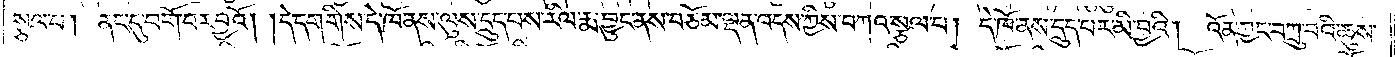སྩལ་པ། ནང་དུ་བགོ་བར་བྱའོ། །དེ་དག་གིས་དེ་ཁོ་ནས་ལུས་དྲུད་པས་རིལ་རྨ་བྱུང་ནས་བཅོམ་ལྡན་འདས་ཀྱིས་བཀའ་སྩལ་པ། དེ་ཁོ་ནས་དྲུད་པར་མི་བྱའི། འོན་ཀྱང་བཀྲུ་བའི་ཆུས་
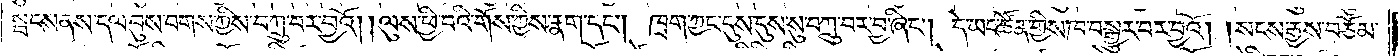སྤངས་ནས་དལ་བུས་བགས་ཀྱིས་བཀྲུ་བར་བྱའོ། །ལུས་ཕྱི་བའི་གོས་ཀྱིས་རྣག་དང༌། ཁྲག་ཀྱང་དུས་དུས་སུ་བཀྲུ་བར་བྱ་ཞིང༌། དེ་ཡང་ཚོན་གྱིས་ཁ་བསྒྱུར་བར་བྱའོ། །སངས་རྒྱས་བཅོམ་
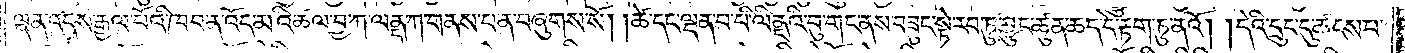ལྡན་འདས་རྒྱལ་པོའི་ཁབ་ན་འོད་མའི་ཚལ་བྱ་ཀ་ལནྡ་ཀ་གནས་པ་ན་བཞུགས་སོ། །ཚེ་དང་ལྡན་པ་པི་ལིནདའི་བུ་གང་ནས་བཟུང་སྟེ་རབ་ཏུ་བྱུང་ཚུན་ཆད་དེ་རྟག་ཏུ་ནའོ། །དེའི་དྲུང་དུ་ཚངས་པ་
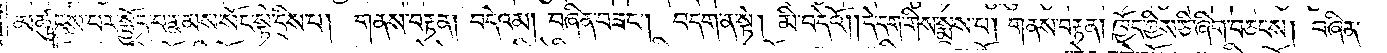མཚུངས་པར་སྤྱོད་པ་རྣམས་སོང་སྟེ་དྲིས་པ། གནས་བརྟན། བདེའམ། བཞིན་བཟང༌། བདག་ན་སྟེ། མི་བདེའོ། །དེ་དག་གིས་སྨྲས་པ། གནས་བརྟན། ཁྱོད་ཀྱིས་ཅི་ཞིག་བཅངས། བཞིན་
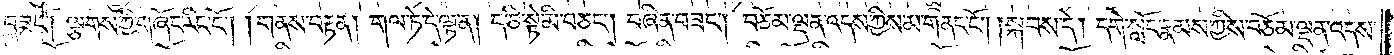བཟང༌། ལྕགས་ཀྱི་གཞོང་རིང་ངོ༌། །གནས་བརྟན། གལ་ཏེ་དེ་ལྟ་ན། ད་ཅི་སྟེ་མི་བཅང༌། བཞིན་བཟང༌། བཅོམ་ལྡན་འདས་ཀྱིས་མ་གནང་ངོ༌། །སྐབས་དེ། དགེ་སློང་རྣམས་ཀྱིས་བཅོམ་ལྡན་འདས་
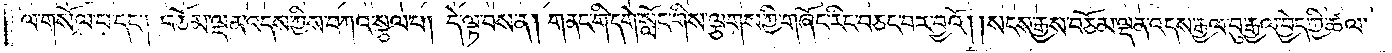ལ་གསོལ་པ་དང༌། བཅོམ་ལྡན་འདས་ཀྱིས་བཀའ་སྩལ་པ། དེ་ལྟ་བས་ན། གནང་གི་དགེ་སློང་གིས་ལྕགས་ཀྱི་གཞོང་རིང་བཅང་བར་བྱའོ། །སངས་རྒྱས་བཅོམ་ལྡན་འདས་རྒྱལ་བུ་རྒྱལ་བྱེད་ཀྱི་ཚལ་
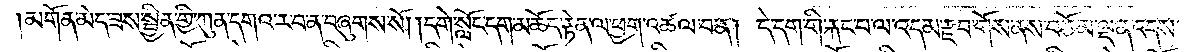མགོན་མེད་ཟས་སྦྱིན་གྱི་ཀུན་དགའ་ར་བ་ན་བཞུགས་སོ། །དགེ་སློང་དག་མཆོད་རྟེན་ལ་ཕྱག་འཚལ་བ་ན། དེ་དག་གི་རྐང་པ་ལ་འདམ་རྫབ་གོས་ནས་བཅོམ་ལྡན་འདས་
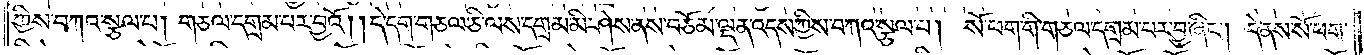ཀྱིས་བཀའ་སྩལ་པ། གཅལ་དགྲམ་པར་བྱའོ། །དེ་དག་གཅལ་ཅི་ལས་དགྲམ་མི་ཤེས་ནས་བཅོམ་ལྡན་འདས་ཀྱིས་བཀའ་སྩལ་པ། སོ་ཕག་གི་གཅལ་དགྲམ་པར་བྱ་ཞིང༌། དེ་ནས་སོ་ཕག་
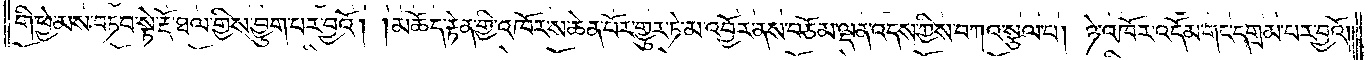གི་ཕྱེ་མས་བཏབ་སྟེ་རྡོ་ཐལ་གྱིས་བྱུག་པར་བྱའོ། །མཆོད་རྟེན་གྱི་འཁོར་ས་ཆེན་པོར་གྱུར་ཏེ་མ་འབྱོར་ནས་བཅོམ་ལྡན་འདས་ཀྱིས་བཀའ་སྩལ་པ། ཉེ་འཁོར་འདོམ་གང་དགྲམ་པར་བྱའོ། །
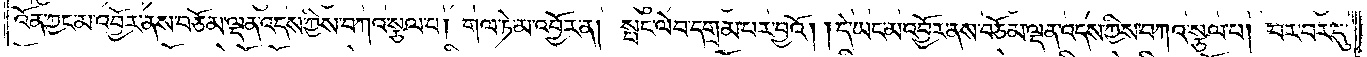འོན་ཀྱང་མ་འབྱོར་ནས་བཅོམ་ལྡན་འདས་ཀྱིས་བཀའ་སྩལ་པ། གལ་ཏེ་མ་འབྱོར་ན། སྤང་ལེབ་དགྲམ་པར་བྱའོ། །དེ་ཡང་མ་འབྱོར་ནས་བཅོམ་ལྡན་འདས་ཀྱིས་བཀའ་སྩལ་པ། བར་བར་དུ་
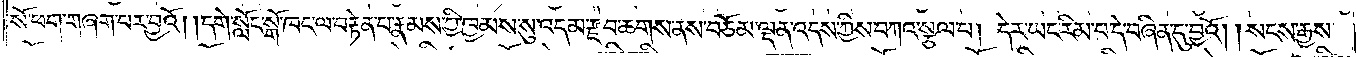སོ་ཕག་གཞག་པར་བྱའོ། །དགེ་སློང་སྒོ་ཁང་ལ་བརྟེན་པ་རྣམས་ཀྱི་ཁྱམས་སུ་འདམ་རྫབ་ཆགས་ནས་བཅོམ་ལྡན་འདས་ཀྱིས་བཀའ་སྩལ་པ། དེར་ཡང་རིམ་པ་དེ་བཞིན་དུ་བྱའོ། །སངས་རྒྱས་
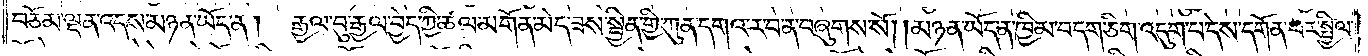བཅོམ་ལྡན་འདས་མཉན་ཡོད་ན། རྒྱལ་བུ་རྒྱལ་བྱེད་ཀྱི་ཚལ་མགོན་མེད་ཟས་སྦྱིན་གྱི་ཀུན་དགའ་ར་བ་ན་བཞུགས་སོ། །མཉན་ཡོད་ན་ཁྱིམ་བདག་ཅིག་འདུག་པ་དེས་དགོན་པར་སྤྱིལ་
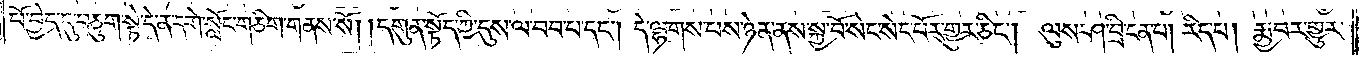པོ་བྱེད་དུ་བཅུག་སྟེ་དེ་ན་དགེ་སློང་གཅིག་གནས་སོ། །དགུན་སྟོད་ཀྱི་དུས་ལ་བབ་པ་དང༌། དེ་ལྷགས་པས་ཉེན་ནས་སྐྱ་བོ་སེང་སེང་པོར་གྱུར་ཅིང༌། ལུས་ཤ་བྲི་ངན་པ། རིད་པ། རྨྱ་བར་གྱུར་
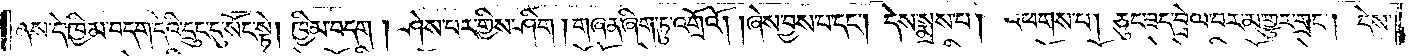ནས་དེ་ཁྱིམ་བདག་དེའི་དྲུང་དུ་སོང་སྟེ། ཁྱིམ་བདག། ཤེས་པར་གྱིས་ཤིག །གཞན་ཞིག་ཏུ་འགྲོའོ། །ཞེས་བྱས་པ་དང༌། དེས་སྨྲས་པ། འཕགས་པ། ཅུང་ཟད་བྲེལ་བར་མ་གྱུར་གྲང༌། དེས་
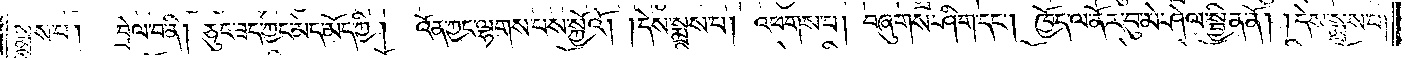སྨྲས་པ། བྲེལ་བ་ནི། ཅུང་ཟད་ཀྱང་མེད་མོད་ཀྱི། འོན་ཀྱང་ལྷགས་པས་སྐྱེའོ། །དེས་སྨྲས་པ། འཕགས་པ། བཞུགས་ཤིག་དང༌། ཁྱོད་ལ་ནོར་བུ་མེ་ཤེལ་སྦྱིན་ནོ། །དེས་སྨྲས་པ།
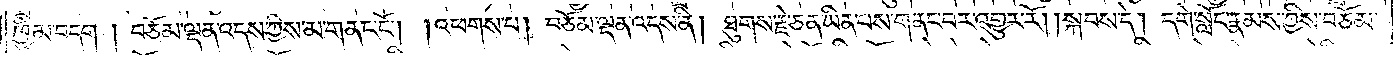ཁྱིམ་བདག །བཅོམ་ལྡན་འདས་ཀྱིས་མ་གནང་ངོ༌། །འཕགས་པ། བཅོམ་ལྡན་འདས་ནི། ཐུགས་རྗེ་ཅན་ཡིན་པས་གནང་བར་འགྱུར་རོ། །སྐབས་དེ། དགེ་སློང་རྣམས་ཀྱིས་བཅོམ་
